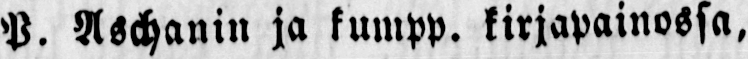P. Aschanin ja kumpp. kirjapainossa, 1862.
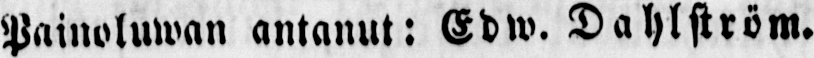Painoluwan antanut: Edw. Dahlström.
